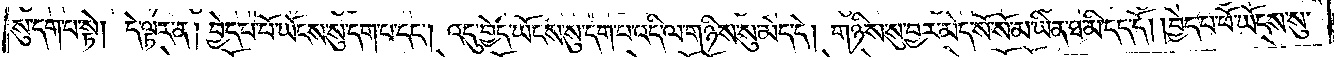སུ་དག་པ་སྟེ། དེ་ལྟར་ན། བྱེད་པ་པོ་ཡོངས་སུ་དག་པ་དང༌། འདུ་བྱེད་ཡོངས་སུ་དག་པ་འདི་ལ་གཉིས་སུ་མེད་དེ། གཉིས་སུ་བྱར་མེད་སོ་སོ་མ་ཡིན་ཐ་མི་དད་དོ། །བྱེད་པ་པོ་ཡོངས་སུ་
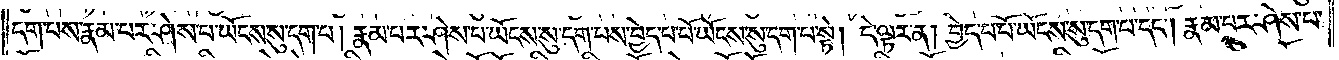དག་པས་རྣམ་པར་ཤེས་པ་ཡོངས་སུ་དག་པ། རྣམ་པར་ཤེས་པ་ཡོངས་སུ་དག་པས་བྱེད་པ་པོ་ཡོངས་སུ་དག་པ་སྟེ། དེ་ལྟར་ན། བྱེད་པ་པོ་ཡོངས་སུ་དག་པ་དང༌། རྣམ་པར་ཤེས་པ་
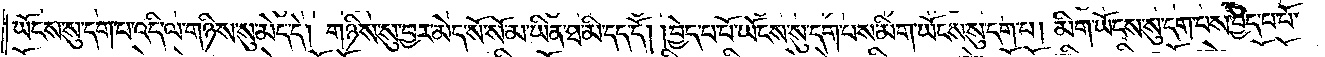ཡོངས་སུ་དག་པ་འདི་ལ་གཉིས་སུ་མེད་དེ། གཉིས་སུ་བྱར་མེད་སོ་སོ་མ་ཡིན་ཐ་མི་དད་དོ། །བྱེད་པ་པོ་ཡོངས་སུ་དག་པས་མིག་ཡོངས་སུ་དག་པ། མིག་ཡོངས་སུ་དག་པས་བྱེད་པ་པོ་
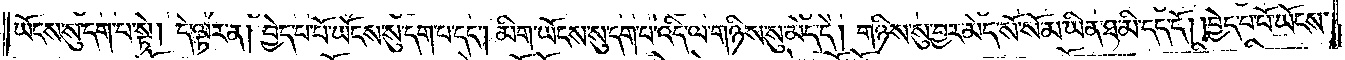ཡོངས་སུ་དག་པ་སྟེ། དེ་ལྟར་ན། བྱེད་པ་པོ་ཡོངས་སུ་དག་པ་དང༌། མིག་ཡོངས་སུ་དག་པ་འདི་ལ་གཉིས་སུ་མེད་དེ། གཉིས་སུ་བྱར་མེད་སོ་སོ་མ་ཡིན་ཐ་མི་དད་དོ། །བྱེད་པ་པོ་ཡོངས་
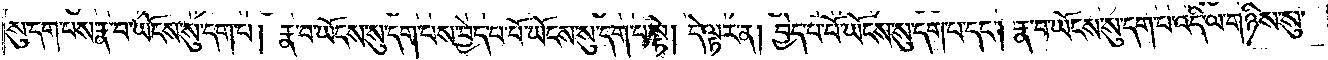སུ་དག་པས་རྣ་བ་ཡོངས་སུ་དག་པ། རྣ་བ་ཡོངས་སུ་དག་པས་བྱེད་པ་པོ་ཡོངས་སུ་དག་པ་སྟེ། དེ་ལྟར་ན། བྱེད་པ་པོ་ཡོངས་སུ་དག་པ་དང༌། རྣ་བ་ཡོངས་སུ་དག་པ་འདི་ལ་གཉིས་སུ་
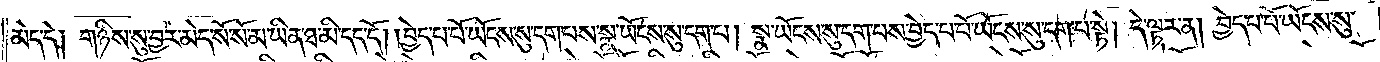མེད་དེ༑ གཉིས་སུ་བྱར་མེད་སོ་སོ་མ་ཡིན་ཐ་མི་དད་དོ། །བྱེད་པ་པོ་ཡོངས་སུ་དག་པས་སྣ་ཡོངས་སུ་དག་པ། སྣ་ཡོངས་སུ་དག་པས་བྱེད་པ་པོ་ཡོངས་སུ་དག་པ་སྟེ། དེ་ལྟར་ན། བྱེད་པ་པོ་ཡོངས་སུ་
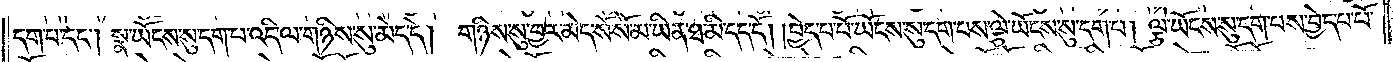དག་པ་དང༌། སྣ་ཡོངས་སུ་དག་པ་འདི་ལ་གཉིས་སུ་མེད་དེ། གཉིས་སུ་བྱར་མེད་སོ་སོ་མ་ཡིན་ཐ་མི་དད་དོ། །བྱེད་པ་པོ་ཡོངས་སུ་དག་པས་ལྕེ་ཡོངས་སུ་དག་པ། ལྕེ་ཡོངས་སུ་དག་པས་བྱེད་པ་པོ་
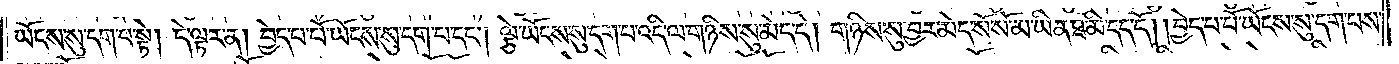ཡོངས་སུ་དག་པ་སྟེ། དེ་ལྟར་ན། བྱེད་པ་པོ་ཡོངས་སུ་དག་པ་དང༌། ལྕེ་ཡོངས་སུ་དག་པ་འདི་ལ་གཉིས་སུ་མེད་དེ། གཉིས་སུ་བྱར་མེད་སོ་སོ་མ་ཡིན་ཐ་མི་དད་དོ། །བྱེད་པ་པོ་ཡོངས་སུ་དག་པས་
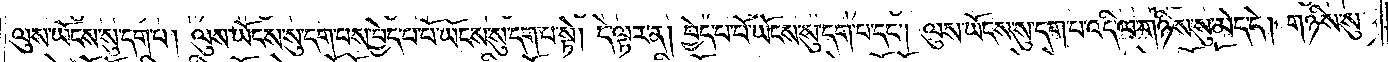ལུས་ཡོངས་སུ་དག་པ། ལུས་ཡོངས་སུ་དག་པས་བྱེད་པ་པོ་ཡོངས་སུ་དག་པ་སྟེ། དེ་ལྟར་ན། བྱེད་པ་པོ་ཡོངས་སུ་དག་པ་དང༌། ལུས་ཡོངས་སུ་དག་པ་འདི་ལ་གཉིས་སུ་མེད་དེ། གཉིས་སུ་
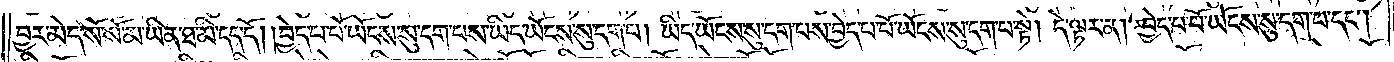བྱར་མེད་སོ་སོ་མ་ཡིན་ཐ་མི་དད་དོ། །བྱེད་པ་པོ་ཡོངས་སུ་དག་པས་ཡིད་ཡོངས་སུ་དག་པ། ཡིད་ཡོངས་སུ་དག་པས་བྱེད་པ་པོ་ཡོངས་སུ་དག་པ་སྟེ། དེ་ལྟར་ན། བྱེད་པ་པོ་ཡོངས་སུ་དག་པ་དང༌།
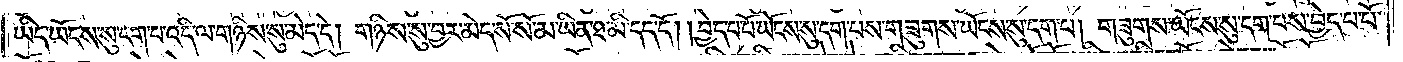ཡིད་ཡོངས་སུ་དག་པ་འདི་ལ་གཉིས་སུ་མེད་དེ། གཉིས་སུ་བྱར་མེད་སོ་སོ་མ་ཡིན་ཐ་མི་དད་དོ། །བྱེད་པ་པོ་ཡོངས་སུ་དག་པས་གཟུགས་ཡོངས་སུ་དག་པ། གཟུགས་ཡོངས་སུ་དག་པས་བྱེད་པ་པོ་
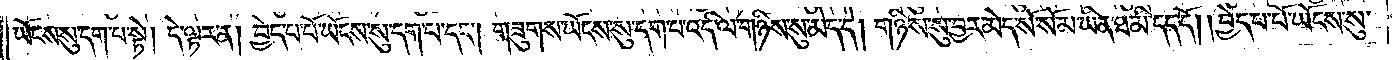ཡོངས་སུ་དག་པ་སྟེ། དེ་ལྟར་ན། བྱེད་པ་པོ་ཡོངས་སུ་དག་པ་དང༌། གཟུགས་ཡོངས་སུ་དག་པ་འདི་ལ་གཉིས་སུ་མེད་དེ། གཉིས་སུ་བྱར་མེད་སོ་སོ་མ་ཡིན་ཐ་མི་དད་དོ། །བྱེད་པ་པོ་ཡོངས་སུ་
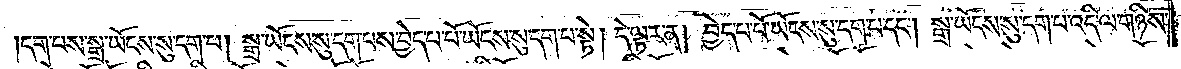དག་པས་སྒྲ་ཡོངས་སུ་དག་པ། སྒྲ་ཡོངས་སུ་དག་པས་བྱེད་པ་པོ་ཡོངས་སུ་དག་པ་སྟེ། དེ་ལྟར་ན། བྱེད་པ་པོ་ཡོངས་སུ་དག་པ་དང༌། སྒྲ་ཡོངས་སུ་དག་པ་འདི་ལ་གཉིས་
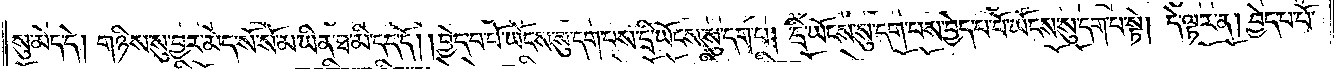སུ་མེད་དེ། གཉིས་སུ་བྱར་མེད་སོ་སོ་མ་ཡིན་ཐ་མི་དད་དོ། །བྱེད་པ་པོ་ཡོངས་སུ་དག་པས་དྲི་ཡོངས་སུ་དག་པ། དྲི་ཡོངས་སུ་དག་པས་བྱེད་པ་པོ་ཡོངས་སུ་དག་པ་སྟེ། དེ་ལྟར་ན། བྱེད་པ་པོ་
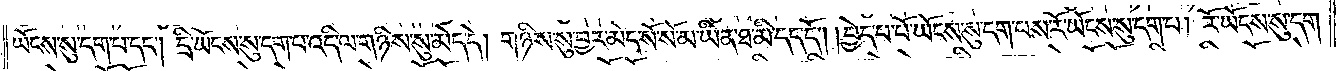ཡོངས་སུ་དག་པ་དང༌། དྲི་ཡོངས་སུ་དག་པ་འདི་ལ་གཉིས་སུ་མེད་དེ། གཉིས་སུ་བྱར་མེད་སོ་སོ་མ་ཡིན་ཐ་མི་དད་དོ། །བྱེད་པ་པོ་ཡོངས་སུ་དག་པས་རོ་ཡོངས་སུ་དག་པ། རོ་ཡོངས་སུ་དག་
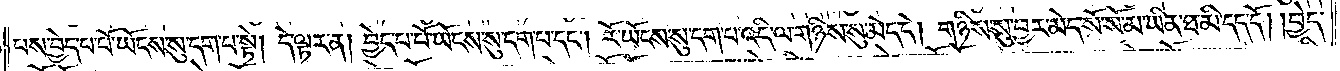པས་བྱེད་པ་པོ་ཡོངས་སུ་དག་པ་སྟེ། དེ་ལྟར་ན། བྱེད་པ་པོ་ཡོངས་སུ་དག་པ་དང༌། རོ་ཡོངས་སུ་དག་པ་འདི་ལ་གཉིས་སུ་མེད་དེ། གཉིས་སུ་བྱར་མེད་སོ་སོ་མ་ཡིན་ཐ་མི་དད་དོ། །བྱེད་
